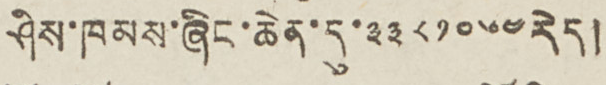ཤིས་ཁམས་ཞིང་ཆེན་དུ་༣༣༨༡༠༦༤རེད།
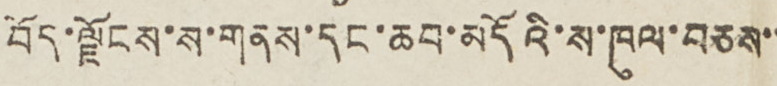བོད་ལྗོངས་ས་གནས་དང་ཆབ་མདོའི་ས་ཁུལ་བཅས་་
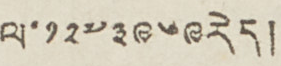ལ་༡༢༧༣༩༦༩རེད།
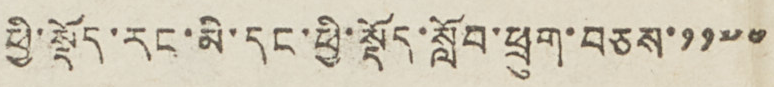སྤྱི་སྡོད་རང་མི་དང་ཕྱི་སྡོད་སློབ་ཕྲུག་བཅས་༡༡༧༤
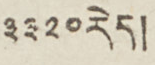༣༣༢༠རེད།
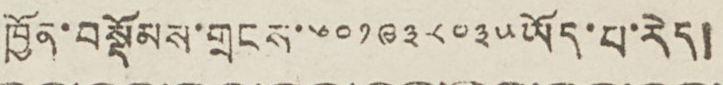ཁྱོན་བསྡོམས་གྲངས་༦༠༡༩༣༨༠༣༥ཡོད་པ་རེད།
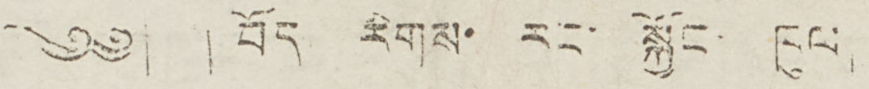༄༅། ། བོད རིགས་ རང་ སྐྱོང ཁུལ།
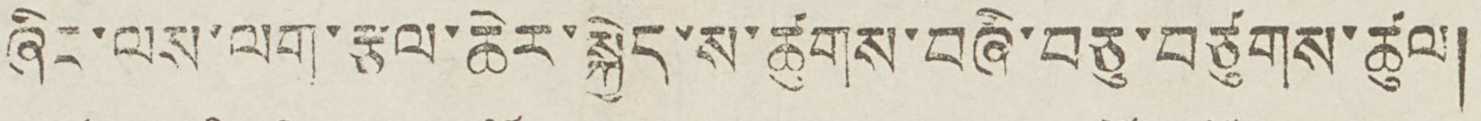ཞིང་ལས་ལག་རྩལ་ཆེར་སྐྱེད་ས་ཚུགས་བཞི་བཅུ་བཙུགས་ཚུལ།
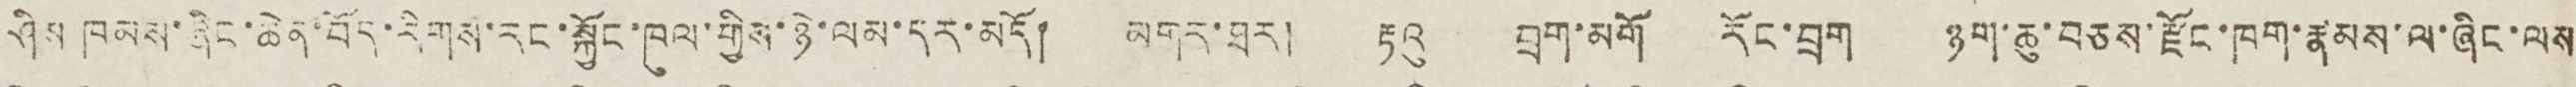ཤིས ཁམས་ཞིང་ཆེན་བོད་རིགས་རང་སྐྱོང་ཁུལ་གྱིས་ཉེ་ལམ་དར་མདོ། མགར་ཐར། རྟའུ བྲག་མགོ རོང་བྲག ཉག་ཆུ་བཅས་རྫོང་ཁག་རྣམས་ལ་ཞིང་ལས
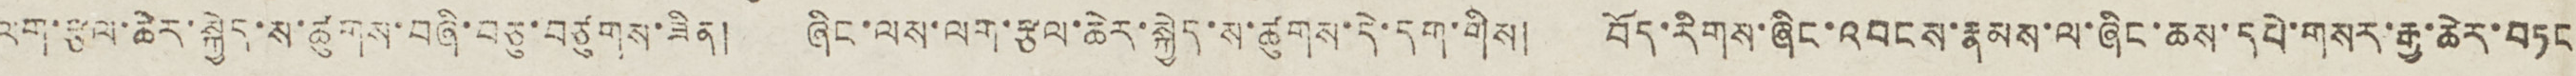ལག་རྩལ་ཆེར་སྐྱེད་ས་ཚུགས་བཞི་བཅུ་བཙུགས་ཟིན། ཞིང་ལས་ལག་རྩལ་ཆེར་སྐྱེད་ས་ཚུགས་དེ་དག་གིས། བོད་རིགས་ཞིང་འབངས་རྣམས་ལ་ཞིང་ཆས་དཔེ་གསར་རྒྱ་ཆེར་བཏང
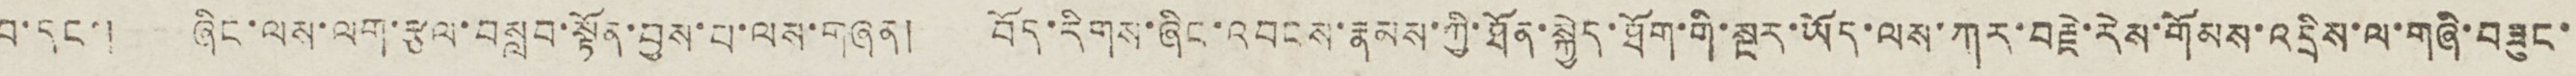བ་དང་། ཞིང་ལས་ལག་རྩལ་བསླབ་སྟོན་བྱས་པ་ལས་གཞན། བོད་རིགས་ཞིང་འབངས་རྣམས་ཀྱི་ཐོན་སྐྱེད་ཐོག་གི་སྔར་ཡོད་ལས་ཀར་བརྗེ་རེས་གོམས་འདྲིས་ལ་གཞི་བཟུང་
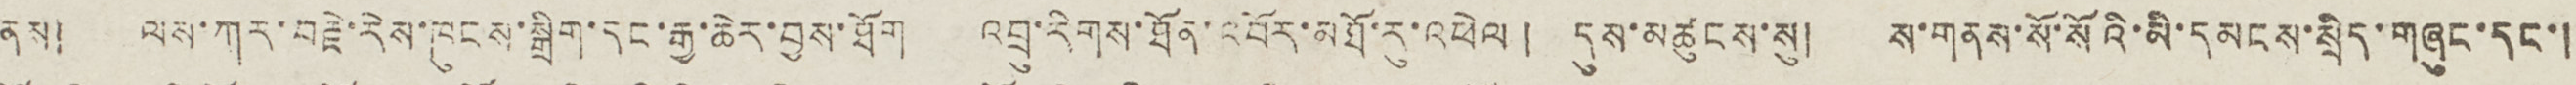ནས། ལས་ཀར་བརྗེ་རེས་ཁུངས་སྒྲིག་དང་རྒྱ་ཆེར་བྱས་ཐོག འབྲུ་རིགས་ཐོན་འབོར་མཐོ་རུ་འཕེལ། དུས་མཚུངས་སུ། ས་གནས་སོ་སོའི་མི་དམངས་སྲིད་གཞུང་དང་།
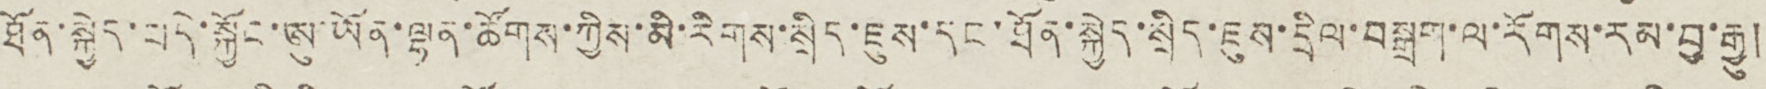ཐོན་སྐྱེད་བདེ་སྐྱོང་ཨུ་ཡོན་ལྷན་ཚོགས་ཀྱིས་མི་རིགས་སྲིད་ཇུས་དང་ཐོན་སྐྱེད་སྲིད་ཇུས་དྲིལ་བསྒྲག་ལ་རོགས་རམ་བྱ་རྒྱུ།
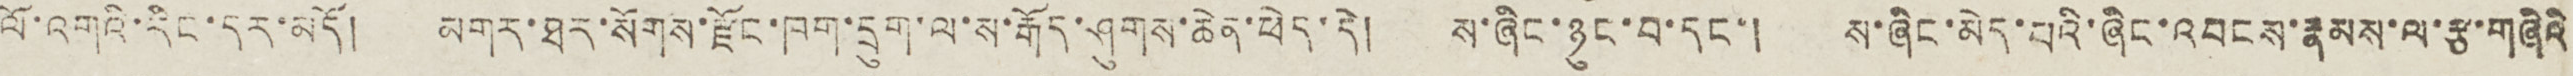ལོ་འགའི་རིང་དར་མདོ། མགར་ཐར་སོགས་རྫོང་ཁག་དྲུག་ལ་ས་རྒོད་ཤུགས་ཆེན་ཕེད་དེ། ས་ཞིང་ཉུང་བ་དང་། ས་ཞིང་མེད་པའི་ཞིང་འབངས་རྣམས་ལ་རྩ་གཞིའི
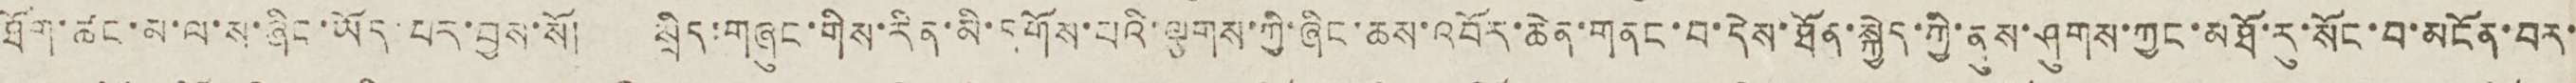ཐོག་ཚང་མ་ལ་ས་ཞིང་ཡོད་པར་བྱས་སོ། སྲིད་གཞུང་གིས་རིན་མི་དགོས་པའི་ལྕགས་ཀྱི་ཞིང་ཆས་འབོར་ཆེན་གནང་བ་དེས་ཐོན་སྐྱེད་ཀྱི་ནུས་ཤུགས་ཀྱང་མཐོ་རུ་སོང་བ་མངོན་བར་
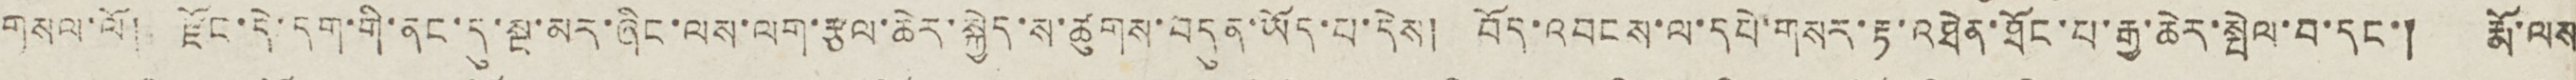གསལ་ལོ། རྫོང་དེ་དག་གི་ནང་དུ་སྔ་མར་ཞིང་ལས་ལག་རྩལ་ཆེར་སྐྱེད་ས་ཚུགས་བདུན་ཡོད་པ་དེས། བོད་འབངས་ལ་དཔེ་གསར་རྟ་འཐེན་ཐོང་པ་རྒྱ་ཆེར་སྤེལ་བ་དང་། རྨོ་ལས
